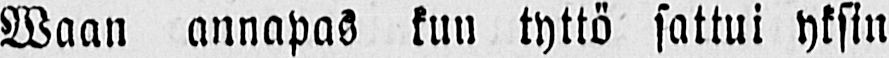Waan annapas kun tyttö sattui yksin
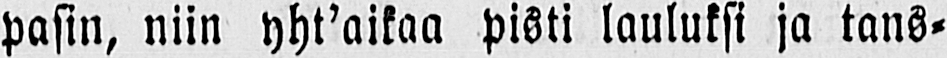pasin, niin yht'aikaa pisti lauluksi ja tans-
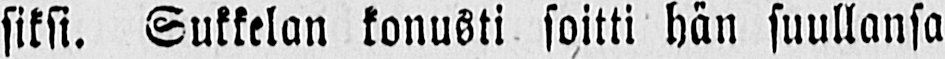siksi. Sukkelan konusti soitti hän suullansa
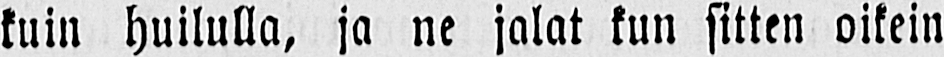kuin huilulla, ja ne jalat kun sitten oikein
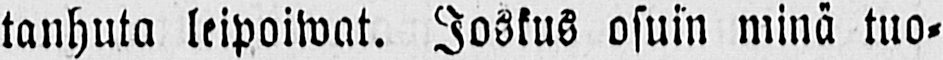tanhuta leipoiwat. Joskus osuin minä tuo-
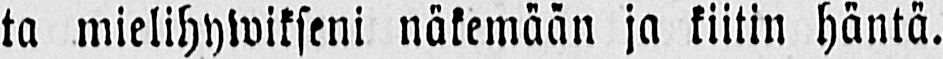ta mielihywikseni näkemään ja kiitin häntä.
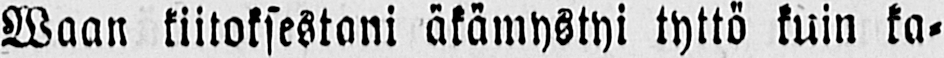Waan kiitoksestani äkämystyi tyttö kuin ka-
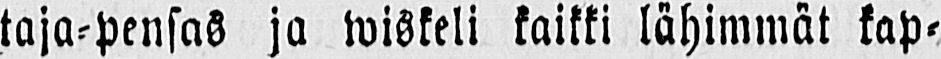taja-pensas ja wiskeli kaikki lähimmät kap-
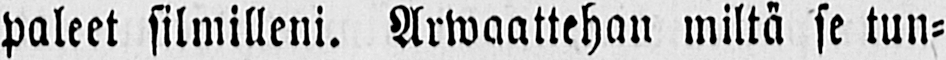paleet silmilleni. Arwaattehan miltä se tun-
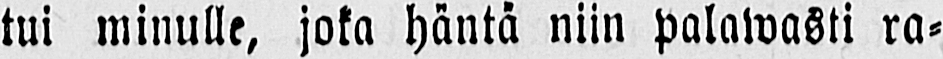tui minulle, joka häntä niin palawasti ra-
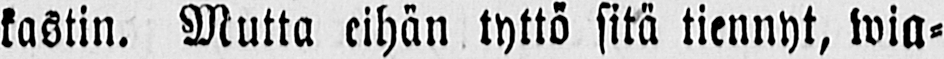kastin. Mutta eihän tyttö sitä tiennyt, wia-
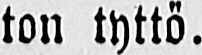ton tyttö.
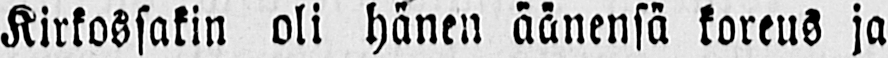Kirkossakin oli hänen äänensä koreus ja
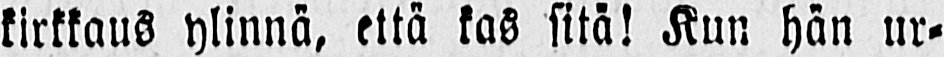kirkkaus ylinnä, että kas sitä! Kun hän ur-
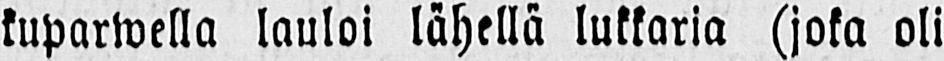kuparwella lauloi lähellä lukkaria (joka oli
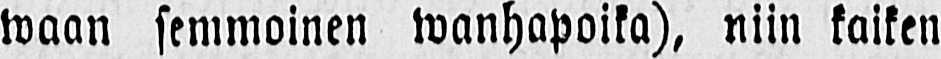waan semmoinen wanhapoika), niin kaiken
